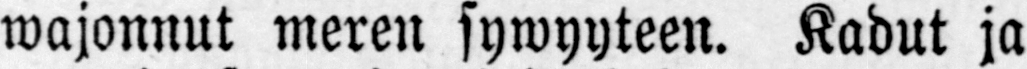wajonnut meren sywyyteen. Kadut ja
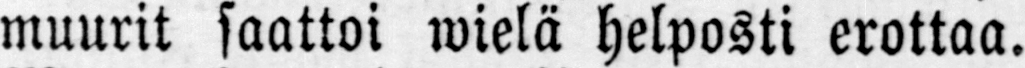muurit saattoi wielä helposti erottaa.
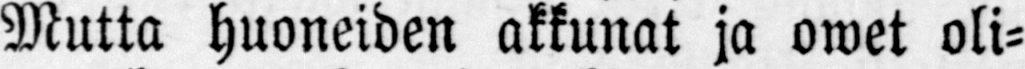Mutta huoneiden akkunat ja owet oli-
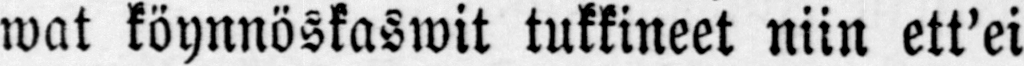wat köynnöskaswit tukkineet niin ett'ei
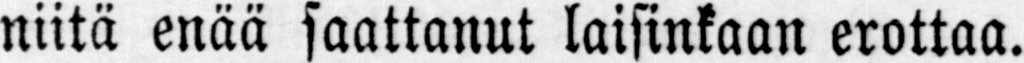niitä enää saattanut laisinkaan erottaa.
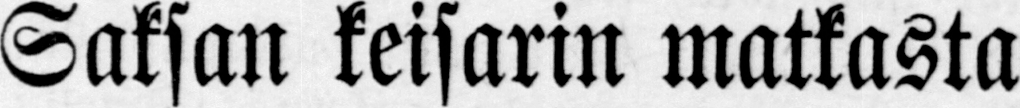Saksan keisarin matkasta
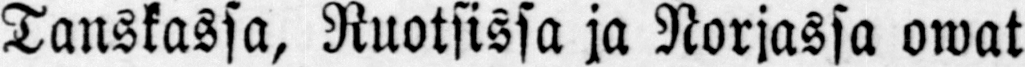Tanskassa, Ruotsissa ja Norjassa owat
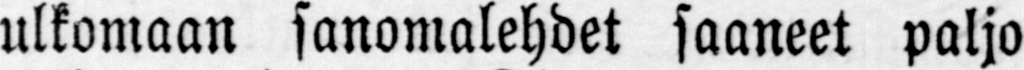ulkomaan sanomalehdet saaneet paljo
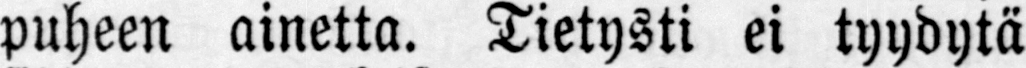puheen ainetta. Tietysti ei tyydytä
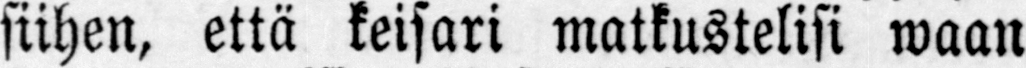siihen, että keisari matkustelisi waan
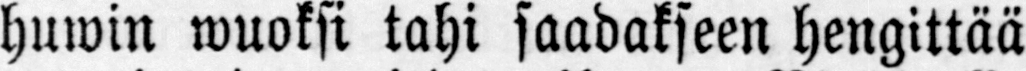huwin wuoksi tahi saadakseen hengittää
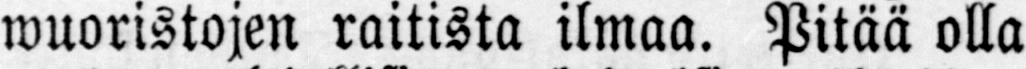wuoristojen raitista ilmaa. Pitää olla
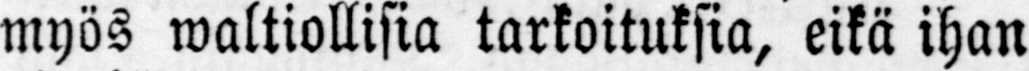myös waltiollisia tarkoituksia, eikä ihan
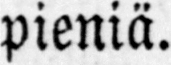pieniä.
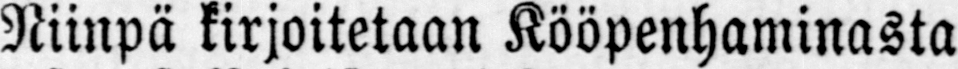Niinpä kirjoitetaan Kööpenhaminasta
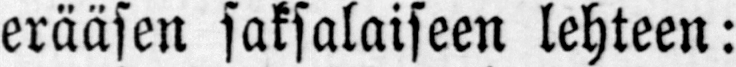erääsen saksalaiseen lehteen:
